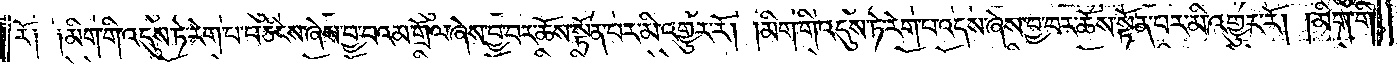རོ༑ ༑མིག་གི་འདུས་ཏེ་རེག་པ་བཅིངས་ཞེས་བྱ་བའམ་གྲོལ་ཞེས་བྱ་བར་ཆོས་སྟོན་པར་མི་འགྱུར་རོ། །མིག་གི་འདུས་ཏེ་རེག་པ་འདས་ཞེས་བྱ་བར་ཆོས་སྟོན་པར་མི་འགྱུར་རོ། །མིག་གི་
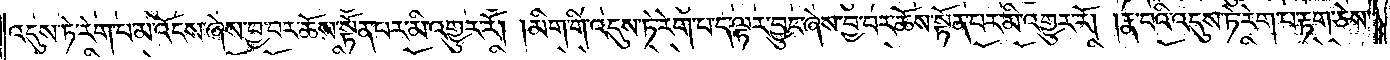འདུས་ཏེ་རེག་པ་མ་འོངས་ཞེས་བྱ་བར་ཆོས་སྟོན་པར་མི་འགྱུར་རོ། །མིག་གི་འདུས་ཏེ་རེག་པ་ད་ལྟར་བྱུང་ཞེས་བྱ་བར་ཆོས་སྟོན་པར་མི་འགྱུར་རོ། །རྣ་བའི་འདུས་ཏེ་རེག་པ་རྟག་ཅེས་
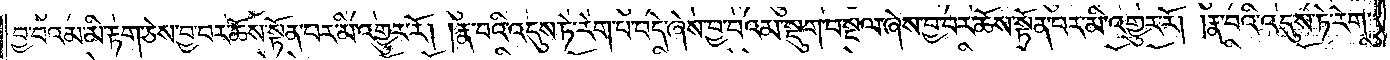བྱ་བའམ་མི་རྟག་ཅེས་བྱ་བར་ཆོས་སྟོན་པར་མི་འགྱུར་རོ། །རྣ་བའི་འདུས་ཏེ་རེག་པ་བདེ་ཞེས་བྱ་བའམ་སྡུག་བསྔལ་ཞེས་བྱ་བར་ཆོས་སྟོན་པར་མི་འགྱུར་རོ། །རྣ་བའི་འདུས་ཏེ་རེག་
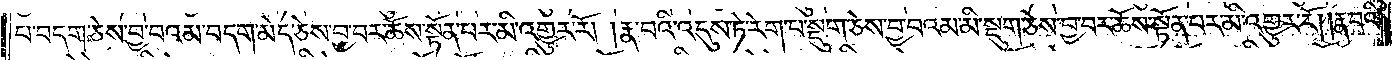པ་བདག་ཅེས་བྱ་བའམ་བདག་མེད་ཅེས་བྱ་བར་ཆོས་སྟོན་པར་མི་འགྱུར་རོ། །རྣ་བའི་འདུས་ཏེ་རེག་པ་སྡུག་ཅེས་བྱ་བའམ་མི་སྡུག་ཅེས་བྱ་བར་ཆོས་སྟོན་པར་མི་འགྱུར་རོ། །རྣ་བའི་
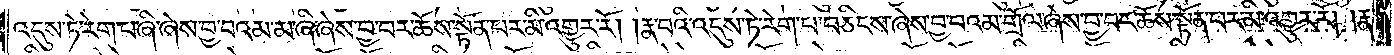འདུས་ཏེ་རེག་པ་ཞི་ཞེས་བྱ་བའམ་མ་ཞི་ཞེས་བྱ་བར་ཆོས་སྟོན་པར་མི་འགྱུར་རོ། །རྣ་བའི་འདུས་ཏེ་རེག་པ་བཅིངས་ཞེས་བྱ་བའམ་གྲོལ་ཞེས་བྱ་བར་ཆོས་སྟོན་པར་མི་འགྱུར་རོ། །རྣ་
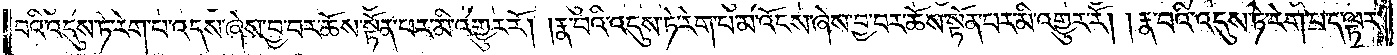བའི་འདུས་ཏེ་རེག་པ་འདས་ཞེས་བྱ་བར་ཆོས་སྟོན་པར་མི་འགྱུར་རོ། །རྣ་བའི་འདུས་ཏེ་རེག་པ་མ་འོངས་ཞེས་བྱ་བར་ཆོས་སྟོན་པར་མི་འགྱུར་རོ། །རྣ་བའི་འདུས་ཏེ་རེག་པ་ད་ལྟར་
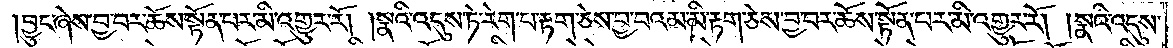བྱུང་ཞེས་བྱ་བར་ཆོས་སྟོན་པར་མི་འགྱུར་རོ། །སྣའི་འདུས་ཏེ་རེག་པ་རྟག་ཅེས་བྱ་བའམ་མི་རྟག་ཅེས་བྱ་བར་ཆོས་སྟོན་པར་མི་འགྱུར་རོ། །སྣའི་འདུས་
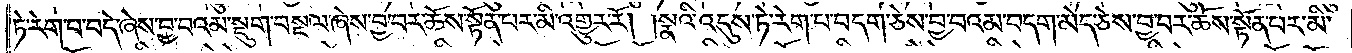ཏེ་རེག་པ་བདེ་ཞེས་བྱ་བའམ་སྡུག་བསྔལ་ཞེས་བྱ་བར་ཆོས་སྟོན་པར་མི་འགྱུར་རོ། །སྣའི་འདུས་ཏེ་རེག་པ་བདག་ཅེས་བྱ་བའམ་བདག་མེད་ཅེས་བྱ་བར་ཆོས་སྟོན་པར་མི་
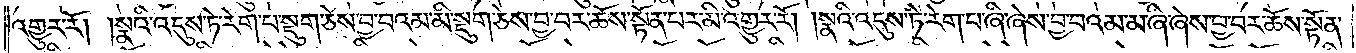འགྱུར་རོ། །སྣའི་འདུས་ཏེ་རེག་པ་སྡུག་ཅེས་བྱ་བའམ་མི་སྡུག་ཅེས་བྱ་བར་ཆོས་སྟོན་པར་མི་འགྱུར་རོ། །སྣའི་འདུས་ཏེ་རེག་པ་ཞི་ཞེས་བྱ་བའམ་མ་ཞི་ཞེས་བྱ་བར་ཆོས་སྟོན་
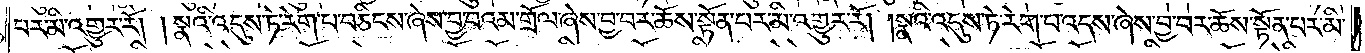པར་མི་འགྱུར་རོ། །སྣའི་འདུས་ཏེ་རེག་པ་བཅིངས་ཞེས་བྱ་བའམ་གྲོལ་ཞེས་བྱ་བར་ཆོས་སྟོན་པར་མི་འགྱུར་རོ། །སྣའི་འདུས་ཏེ་རེག་པ་འདས་ཞེས་བྱ་བར་ཆོས་སྟོན་པར་མི་
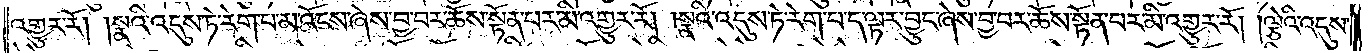འགྱུར་རོ། །སྣའི་འདུས་ཏེ་རེག་པ་མ་འོངས་ཞེས་བྱ་བར་ཆོས་སྟོན་པར་མི་འགྱུར་རོ། །སྣའི་འདུས་ཏེ་རེག་པ་ད་ལྟར་བྱུང་ཞེས་བྱ་བར་ཆོས་སྟོན་པར་མི་འགྱུར་རོ། །ལྕེའི་འདུས་
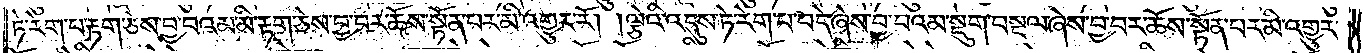ཏེ་རེག་པ་རྟག་ཅེས་བྱ་པའམ་མི་རྟག་ཅེས་བྱ་བར་ཆོས་སྟོན་པར་མི་འགྱུར་རོ། །ལྕེའི་འདུས་ཏེ་རེག་པ་བདེ་ཞེས་བྱ་བའམ་སྡུག་བསྔལ་ཞེས་བྱ་བར་ཆོས་སྟོན་པར་མི་འགྱུར་
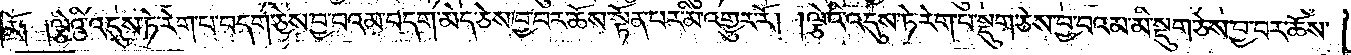རོ༑ ༑ལྕེའི་འདུས་ཏེ་རེག་པ་བདག་ཅེས་བྱ་བའམ་བདག་མེད་ཅེས་བྱ་བར་ཆོས་སྟོན་པར་མི་འགྱུར་རོ། །ལྕེའི་འདུས་ཏེ་རེག་པ་སྡུག་ཅེས་བྱ་བའམ་མི་སྡུག་ཅེས་བྱ་བར་ཆོས་
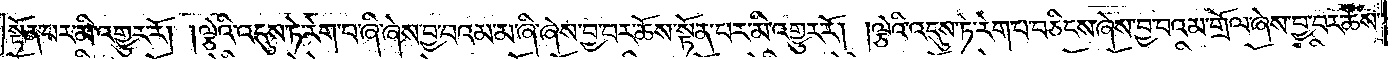སྟོན་པར་མི་འགྱུར་རོ། །ལྕེའི་འདུས་ཏེ་རེག་པ་ཞི་ཞེས་བྱ་བ་འམ་མ་ཞི་ཞེས་བྱ་བར་ཆོས་སྟོན་པར་མི་འགྱུར་རོ། །ལྕེའི་འདུས་ཏེ་རེག་པ་བཅིངས་ཞེས་བྱ་བའམ་གྲོལ་ཞེས་བྱ་བར་ཆོས་
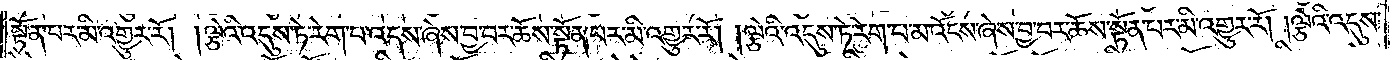སྟོན་པར་མི་འགྱུར་རོ། །ལྕེའི་འདུས་ཏེ་རེག་པ་འདས་ཞེས་བྱ་བར་ཆོས་སྟོན་པར་མི་འགྱུར་རོ། །ལྕེའི་འདུས་ཏེ་རེག་པ་མ་འོངས་ཞེས་བྱ་བར་ཆོས་སྟོན་པར་མི་འགྱུར་རོ། །ལྕེའི་འདུས་
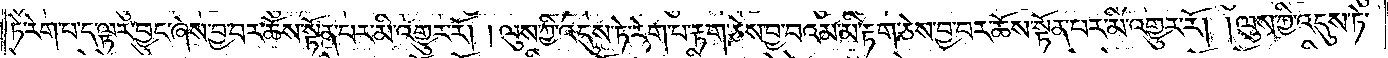ཏེ་རེག་པ་ད་ལྟར་བྱུང་ཞེས་བྱ་བར་ཆོས་སྟོན་པར་མི་འགྱུར་རོ། །ལུས་ཀྱི་འདུས་ཏེ་རེག་པ་རྟག་ཅེས་བྱ་བའམ་མི་རྟག་ཅེས་བྱ་བར་ཆོས་སྟོན་པར་མི་འགྱུར་རོ། །ལུས་ཀྱི་འདུས་ཏེ་
